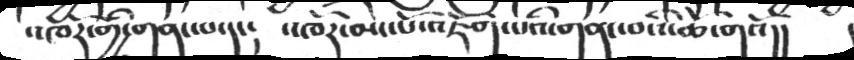འཁོར་གྱི་གནང་པ་དང།  འཁོར་མང་པོ་འཇོག་པའི་གནང་བའི་ཆོ་གའོ།།
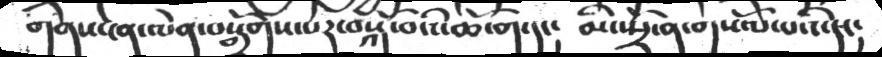གནས་ངན་ལེན་པསྒྲོགས་པར་བསྐོ་བའི་ཆོ་ག་དང།  མི་སྤྲོ་ན་གསོལ་པའི་དང།
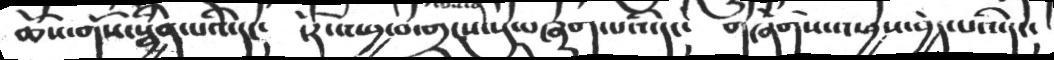ཆོས་གོས་སྦྱིན་པའི་དང༴   ངོར་འཕྱ་བ་གྲངས་སུ་བཞུགས་པའི་དང༴   གཞགས་འཕྱས་བྱེད་པའི་དང༴
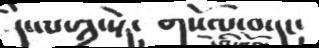དེ་ལ་༣་སྟེ། གསོལ་བ་དང།
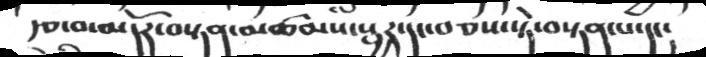རྩ་བ་མདོར་བསྟན་མཚམས་སྦྱར་དང་བཅས་ཏེ་བསྟན་པ་དང།
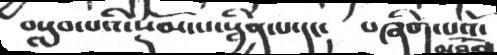བསླབ་པའི་སྡོམ་པ་སྦྱིན་པ་དང༴   བཞིག་པའོ་
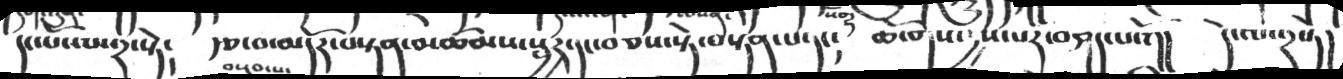དང་པོ་ལ་༢་སྟེ༴   རྩ་བ་མདོར་བསྟན་མཚམས་སྦྱར་དང་བཅས་སྟེ་བསྟན་པ་དང༴   ཆ་གས་དྱས་པར་བཤད་པའོ།།  དེ་ལ་༢་ཏེ།
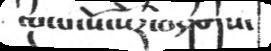ལྔ་པ་སོ་སོར་བཤགས་
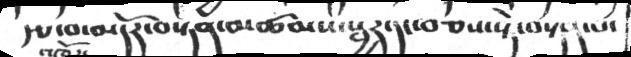རྩ་བ་མདོར་བསྟན་མཚམས་སྦྱར་དང་བཅས་སྟེ་བསྟན་པ་
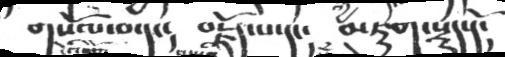གསོལ་བ་དང།     བརྗོད་པ་དང།    མཇུག་སྡུད་དོ།
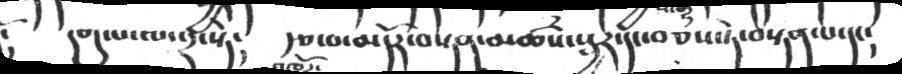༴  དགུ་པ་ལ་༢་སྟེ༴  རྩ་བ་མདོར་བསྟན་མཚས་སྦྱར་དང་བཅས་ཏེ་བསྟན་པ་དང༴
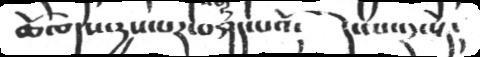ཆོ་གས་རྱས་པར་བཤད་པའོ། དེ་ལ་༢་སྟེ།
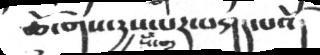ཆོ་གས་དྱས་པར་བཤད་པའོ།
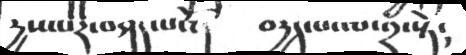རྱས་པར་བཤད་པའོ། བརྱད་པ་ལ་༢་སྟེ།
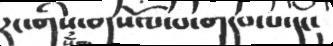རང་གིས་གསོལ་བ་གདབ་པ་དང།
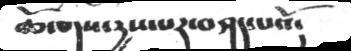ཆོ་གས་རྱས་པར་བཤད་པའོ།
